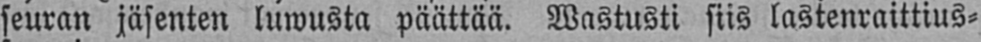seuran jäsenten luwusta päättää. Wastusti siis lastenraittius-
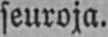seuroja.
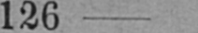126
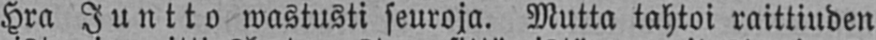Hra Juntto wastusti seuroja. Mutta tahtoi raittiuden
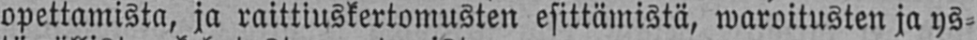opettamista, ja raittiuskertomusten esittämistä, waroitusten ja ys-
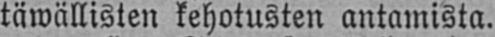täwällisten kehotusten antamista.
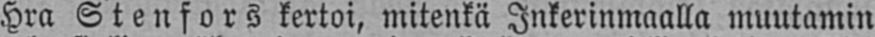Hra Stenfors kertoi, mitenkä Inkerinmaalla muutamin
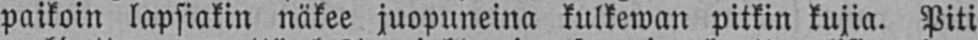paikoin lapsiakin näkee juopuneina kulkewan pitkin kujia. Piti
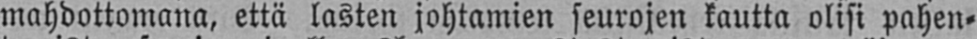mahdottomana, että lasten johtamien seurojen kautta olisi pahen-
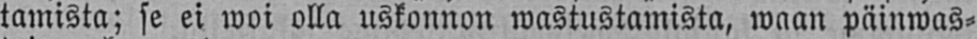tamista; se ei woi olla uskonnon wastustamista, waan päinwas-
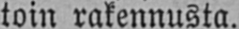toin rakennusta.
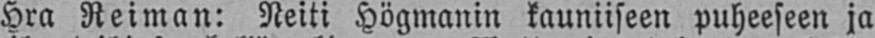Hra Reiman: Neiti Hagmanin kauniiseen puheeseen ja
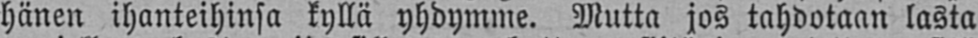hänen ihanteihinsa kyllä yhdymme. Mutta jos tahdotaan lasta
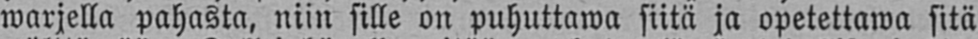warjella pahasta, niin sille on puhuttawa siitä ja opetettawa sitä
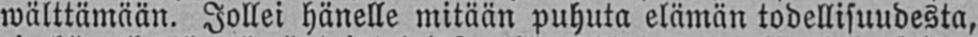wälttämään. Jollei hänelle mitään puhuta elämän todellisuudesta,
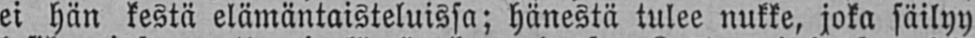ei hän kestä elämäntaisteluissa; hänestä tulee nukke, joka säilyy
